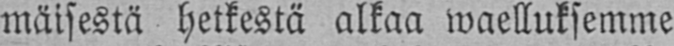mäisestä hetkestä alkaa waelluksemme
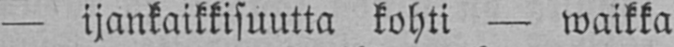— ijankaikkisuutta kohti — waikka
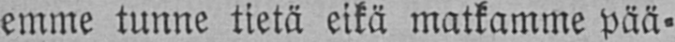emme tunne tietä eikä matkamme pää-
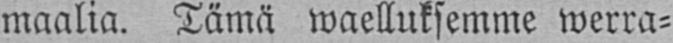maalia. Tämä waelluksemme werra-
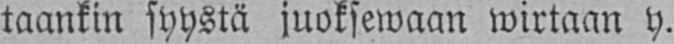taankin syystä juoksewaan wirtaan y.
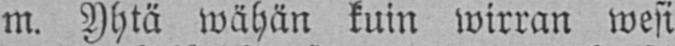m. Yhtä wähän kuin wirran wesi
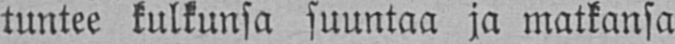tuntee kulkunsa suuntaa ja matkansa
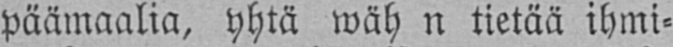päämaalia, yhtä wäh n tietää ihmi-
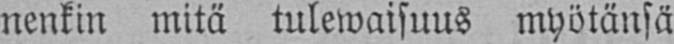nenkin mitä tulewaisuus myötänsä
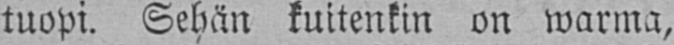tuopi. Sehän kuitenkin on warma,
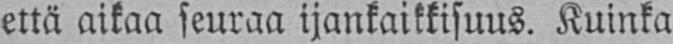että aikaa seuraa ijankaikkisuus. Kuinka
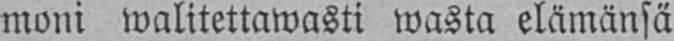moni walitettawasti wasta elämänsä
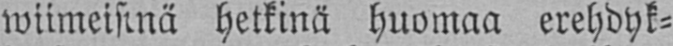wiimeisinä hetkinä huomaa erehdyk-
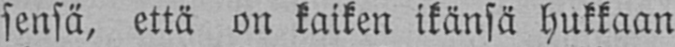sensä, että on kaiken ikänsä hukkaan
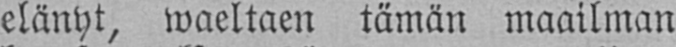elänyt, waeltaen tämän maailman
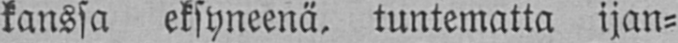kanssa eksyneenä, tuntematta ijan-
